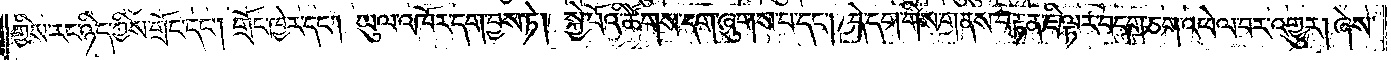གྱིས་རང་ཉིད་ཀྱིས་གྲོང་དང༌། གྲོང་ཁྱེར་དང༌། ཡུལ་འཁོར་དག་བྱས་ཏེ། སྐྱེ་བོའི་ཚོགས་དག་ཞུགས་པ་དང༌། དེ་དག་གིས་གནས་བརྟན་ཇི་ལྟར་བདག་ཅག་འཕེལ་བར་འགྱུར། །ཞེས་
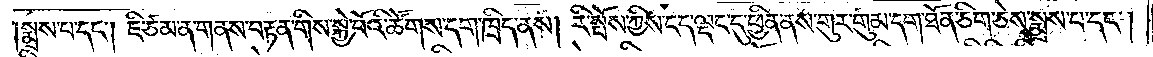།སྨྲས་པ་དང༌། ཇི་ཙམ་ན་གནས་བརྟན་གིས་སྐྱེ་བོའི་ཚོགས་དག་ཁྲིད་ནས། རི་སྤོས་ཀྱིས་ངད་ལྡང་དུ་ཕྱིན་ནས་གུར་གུམ་དག་ཐོན་ཅིག་ཅེས་སྨྲས་པ་དང༌།
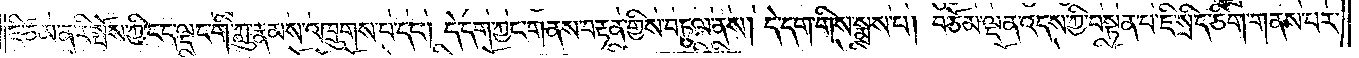ཇི་ཙམ་ན་རི་སྤོས་ཀྱི་ངད་ལྡང་གི་ཀླུ་རྣམས་འཁྲུགས་པ་དང༌། དེ་དག་ཀྱང་གནས་བརྟན་གྱིས་བཏུལ་ནས། དེ་དག་གིས་སྨྲས་པ། བཅོམ་ལྡན་འདས་ཀྱི་བསྟན་པ་ཇི་སྲིད་ཅིག་གནས་པར་
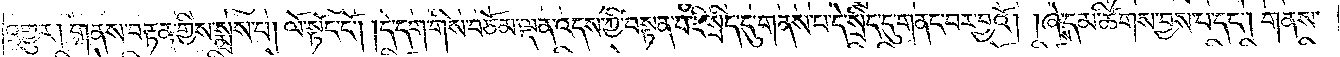འགྱུར། གནས་བརྟན་གྱིས་སྨྲས་པ། ལོ་སྟོང་ངོ༌། །དེ་དག་གིས་བཅོམ་ལྡན་འདས་ཀྱི་བསྟན་པ་ཇི་སྲིད་དུ་གནས་པ་དེ་སྲིད་དུ་གནང་བར་བྱའོ། །ཞེས་དམ་ཚིགས་བྱས་པ་དང༌། གནས་
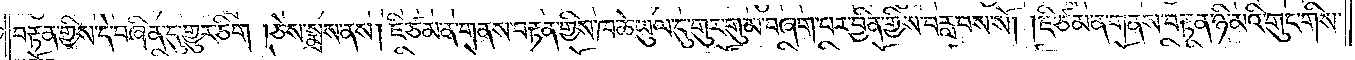བརྟན་གྱིས་དེ་བཞིན་དུ་གྱུར་ཅིག །ཅེས་སྨྲས་ནས། ཇི་ཙམ་ན་གནས་བརྟན་གྱིས་ཁ་ཆེ་ཡུལ་དུ་གུར་གུམ་བཞག་པར་བྱིན་གྱིས་བརླབས་སོ། །ཇི་ཙམ་ན་གནས་བརྟན་ཉི་མའི་གུང་གིས་
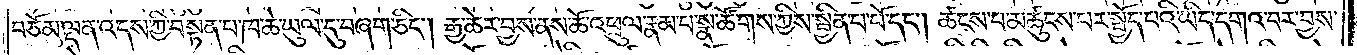བཅོམ་ལྡན་འདས་ཀྱི་བསྟན་པ་ཁ་ཆེ་ཡུལ་དུ་བཞག་ཅིང༌། རྒྱ་ཆེར་བྱས་ནས་ཆོ་འཕྲུལ་རྣམ་པ་སྣ་ཚོགས་ཀྱིས་སྦྱིན་པ་པོ་དང༌། ཚངས་པ་མཚུངས་པར་སྤྱོད་པའི་ཡིད་དགའ་བར་བྱས་
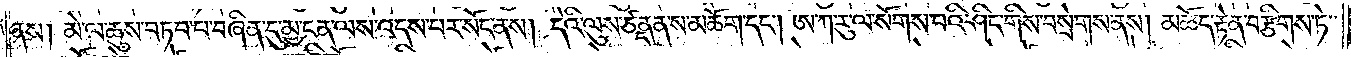ནས། མེ་ལ་ཆུས་བཏབ་པ་བཞིན་དུ་མྱ་ངན་ལས་འདས་པར་སོང་ནས། དེའི་ལུས་ཙནྡན་ས་མཆོག་དང༌། ཨ་ཀ་རུ་ལ་སོགས་པའི་ཤིང་གིས་བསྲེགས་ནས། མཆོད་རྟེན་བརྩིགས་ཏེ་
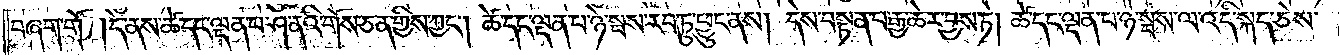བཞག་གོ །དེ་ནས་ཚེ་དང་ལྡན་པ་ཤ་ནའི་གོས་ཅན་གྱིས་ཀྱང༌། ཚེ་དང་ལྡན་པ་ཉེ་སྦས་རབ་ཏུ་ཕྱུང་ནས། དེས་བསྟན་པ་རྒྱ་ཆེར་བྱས་ཏེ། ཚེ་དང་ལྡན་པ་ཉེ་སྦས་ལ་འདི་སྐད་ཅེས་
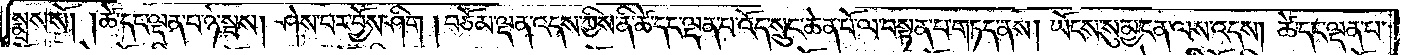སྨྲས་སོ། །ཚེ་དང་ལྡན་པ་ཉེ་སྦས། ཤེས་པར་བྱོས་ཤིག །བཅོམ་ལྡན་འདས་ཀྱིས་ནི་ཚེ་དང་ལྡན་བ་འོད་སྲུང་ཆེན་པོ་ལ་བསྟན་པ་གཏད་ནས། ཡོངས་སུ་མྱ་ངན་ལས་འདས། ཚེ་དང་ལྡན་པ་
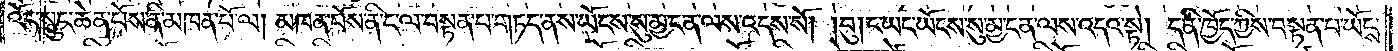འོད་སྲུང་ཆེན་པོས་ནི་མཁན་པོ་ལ། མཁན་པོས་ནི་ང་ལ་བསྟན་པ་གཏད་ནས་ཡོངས་སུ་མྱ་ངན་ལས་འདས་སོ། །བུ། ང་ཡང་ཡོངས་སུ་མྱ་ངན་ལས་འདའ་སྟེ། ད་ནི་ཁྱོད་ཀྱིས་བསྟན་པ་ཡོངས་
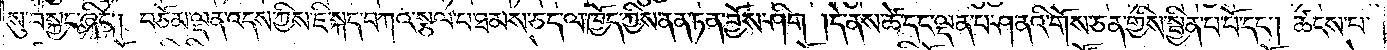སུ་བསྐྱང་ཞིང༌། བཅོམ་ལྡན་འདས་ཀྱིས་ཇི་སྐད་བཀའ་སྩལ་པ་ཐམས་ཅད་ལ་ཁྱོད་ཀྱིས་ནན་ཏན་བྱོས་ཤིག །དེ་ནས་ཚེ་དང་ལྡན་པ་ཤ་ནའི་གོས་ཅན་གྱིས་སྦྱིན་པ་པོ་དང༌། ཚངས་པ་
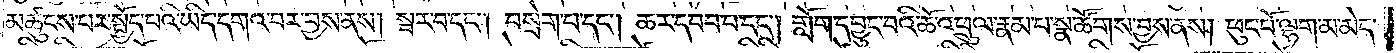མཚུངས་པར་སྤྱོད་པའི་ཡིད་དགའ་བར་བྱས་ནས། སྦར་བ་དང༌། བསྲེག་པ་དང༌། ཆར་དབབ་པ་དང༌། གློག་དབྱུང་བའི་ཆོ་འཕྲུལ་རྣམ་པ་སྣ་ཚོགས་བྱས་ནས། ཕུང་པོ་ལྷག་མ་མེད་
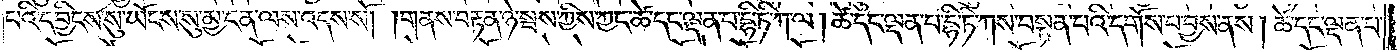པའི་དབྱིངས་སུ་ཡོངས་སུ་མྱ་ངན་ལས་འདས་སོ། །གནས་བརྟན་ཉེ་སྦས་ཀྱིས་ཀྱང་ཚེ་དང་ལྡན་པ་དྷི་ཏི་ཀ་ལ། ཚེ་དང་ལྡན་པ་དྷི་ཏི་ཀས་བསྟན་པའི་དགོས་པ་བྱས་ནས། ཚེ་དང་ལྡན་པ་
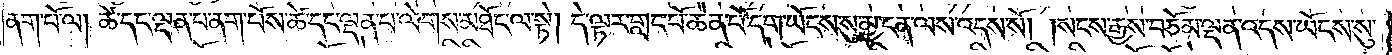ནག་པོ་ལ། ཚེ་དང་ལྡན་པ་ནག་པོས་ཚེ་དང་ལྡན་པ་ལེགས་མཐོང་ལ་སྟེ། དེ་ལྟར་གླང་པོ་ཆེན་པོ་དག་ཡོངས་སུ་མྱ་ངན་ལས་འདས་སོ། །སངས་རྒྱས་བཅོམ་ལྡན་འདས་ཡོངས་སུ་
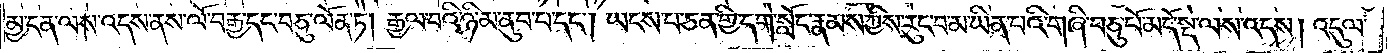མྱ་ངན་ལས་འདས་ནས་ལོ་བརྒྱ་དང་བཅུ་ལོན་ཏེ། རྒྱལ་བའི་ཉི་མ་ནུབ་པ་དང༌། ཡངས་པ་ཅན་གྱི་དགེ་སློང་རྣམས་ཀྱིས་རུང་བ་མ་ཡིན་པའི་གཞི་བཅུ་པོ་མདོ་སྡེ་ལས་འདས། འདུལ་
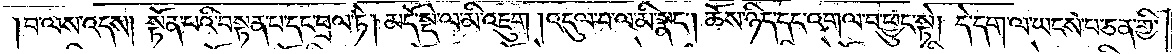བ་ལས་འདས། སྟོན་པའི་བསྟན་པ་དང་བྲལ་ཏེ། མདོ་སྡེ་ལ་མི་འཇུག །འདུལ་བ་ལ་མི་སྣང༌། ཆོས་ཉིད་དང་འགལ་བ་ཕྱུང་སྟེ། དེ་དག་ལ་ཡངས་པ་ཅན་གྱི་
